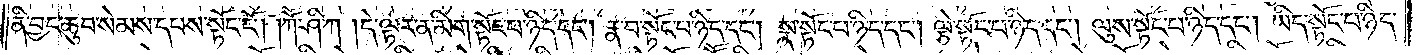ནི་བྱང་ཆུབ་སེམས་དཔས་སྟོང་ངོ༌། །ཀཽ་ཤི་ཀ །དེ་ལྟར་ན་མིག་སྟོང་པ་ཉིད་དང༌། རྣ་བ་སྟོང་པ་ཉིད་དང༌། སྣ་སྟོང་པ་ཉིད་དང༌། ལྕེ་སྟོང་པ་ཉིད་དང༌། ལུས་སྟོང་པ་ཉིད་དང༌། ཡིད་སྟོང་པ་ཉིད་
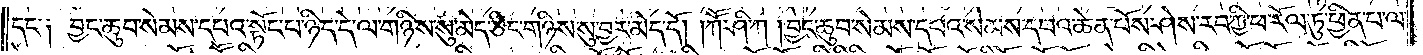དང༌༏ བྱང་ཆུབ་སེམས་དཔའ་སྟོང་པ་ཉིད་དེ་ལ་གཉིས་སུ་མེད་ཅིང་གཉིས་སུ་བྱར་མེད་དོ། །ཀཽ་ཤི་ཀ །བྱང་ཆུབ་སེམས་དཔའ་སེམས་དཔའ་ཆེན་པོས་ཤེས་རབ་ཀྱི་ཕ་རོལ་ཏུ་ཕྱིན་པ་ལ་
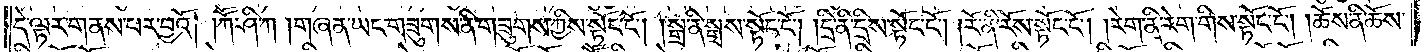དེ་ལྟར་གནས་པར་བྱའོ། །ཀཽ་ཤི་ཀ །གཞན་ཡང་གཟུགས་ནི་གཟུགས་ཀྱིས་སྟོང་ངོ༌། །སྒྲ་ནི་སྒྲས་སྟོང་ངོ༌། །དྲི་ནི་དྲིས་སྟོང་ངོ༌། །རོ་ནི་རོས་སྟོང་ངོ༌། །རེག་ནི་རེག་གིས་སྟོང་ངོ༌། །ཆོས་ནི་ཆོས་
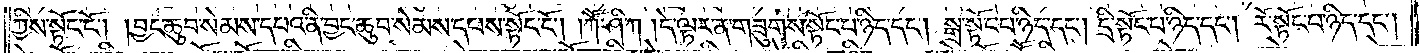ཀྱིས་སྟོང་ངོ༌། །བྱང་ཆུབ་སེམས་དཔའ་ནི་བྱང་ཆུབ་སེམས་དཔས་སྟོང་ངོ༌། །ཀཽ་ཤི་ཀ །དེ་ལྟར་ན་གཟུགས་སྟོང་པ་ཉིད་དང༌། སྒྲ་སྟོང་པ་ཉིད་དང༌། དྲི་སྟོང་པ་ཉིད་དང༌། རོ་སྟོང་པ་ཉིད་དང༌།
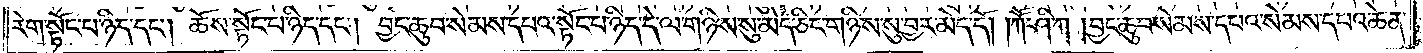རེག་སྟོང་པ་ཉིད་དང༌། ཆོས་སྟོང་པ་ཉིད་དང༌། བྱང་ཆུབ་སེམས་དཔའ་སྟོང་པ་ཉིད་དེ་ལ་གཉིས་སུ་མེད་ཅིང་གཉིས་སུ་བྱར་མེད་དོ། །ཀཽ་ཤི་ཀ །བྱང་ཆུབ་སེམས་དཔའ་སེམས་དཔའ་ཆེན་
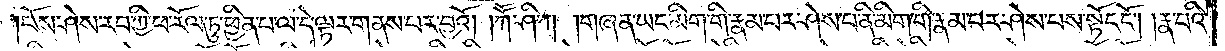པོས་ཤེས་རབ་ཀྱི་ཕ་རོལ་ཏུ་ཕྱིན་པ་ལ་དེ་ལྟར་གནས་པར་བྱའོ། ཀཽ་ཤི་ཀ །གཞན་ཡང་མིག་གི་རྣམ་པར་ཤེས་པ་ནི་མིག་གི་རྣམ་པར་ཤེས་པས་སྟོང་ངོ༌། །རྣ་བའི་
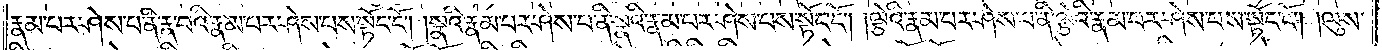རྣམ་པར་ཤེས་པ་ནི་རྣ་བའི་རྣམ་པར་ཤེས་པས་སྟོང་ངོ༌། །སྣའི་རྣམ་པར་ཤེས་པ་ནི་སྣའི་རྣམ་པར་ཤེས་པས་སྟོང་ངོ༌། །ལྕེའི་རྣམ་པར་ཤེས་པ་ནི་ལྕེའི་རྣམ་པར་ཤེས་པས་སྟོང་ངོ༌། །ལུས་
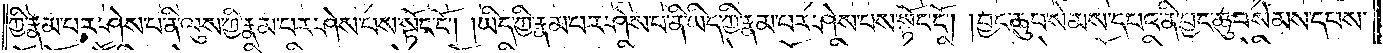ཀྱི་རྣམ་པར་ཤེས་པ་ནི་ལུས་ཀྱི་རྣམ་པར་ཤེས་པས་སྟོང་ངོ༌། །ཡིད་ཀྱི་རྣམ་པར་ཤེས་པ་ནི་ཡིད་ཀྱི་རྣམ་པར་ཤེས་པས་སྟོང་ངོ༌། ། བྱང་ཆུབ་སེམས་དཔའ་ནི་བྱང་ཆུབ་སེམས་དཔས་
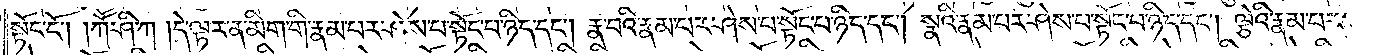སྟོང་ངོ༌། །ཀཽ་ཤི་ཀ །དེ་ལྟར་ན་མིག་གི་རྣམ་པར་ཤེས་པ་སྟོང་པ་ཉིད་དང༌། རྣ་བའི་རྣམ་པར་ཤེས་པ་སྟོང་པ་ཉིད་དང༌། སྣའི་རྣམ་པར་ཤེས་པ་སྟོང་པ་ཉིད་དང༌། ལྕེའི་རྣམ་པར་
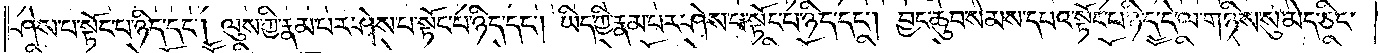ཤེས་པ་སྟོང་པ་ཉིད་དང༌། ལུས་ཀྱི་རྣམ་པར་ཤེས་པ་སྟོང་པ་ཉིད་དང༌། ཡིད་ཀྱི་རྣམ་པར་ཤེས་པ་སྟོང་པ་ཉིད་དང༌། བྱང་ཆུབ་སེམས་དཔའ་སྟོང་པ་ཉིད་དེ་ལ་གཉིས་སུ་མེད་ཅིང་
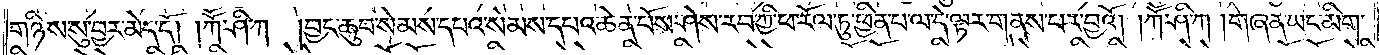གཉིས་སུ་བྱར་མེད་དོ། །ཀཽ་ཤི་ཀ །བྱང་ཆུབ་སེམས་དཔའ་སེམས་དཔའ་ཆེན་པོས་ཤེས་རབ་ཀྱི་ཕ་རོལ་ཏུ་ཕྱིན་པ་དེ་ལྟར་གནས་པར་བྱའོ། ཀཽ་ཤི་ཀ །གཞན་ཡང་མིག་
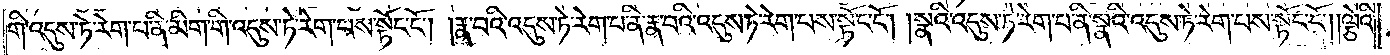གི་འདུས་ཏེ་རེག་པ་ནི་མིག་གི་འདུས་ཏེ་རེག་པས་སྟོང་ངོ༌། །རྣ་བའི་འདུས་ཏེ་རེག་པ་ནི་རྣ་བའི་འདུས་ཏེ་རེག་པས་སྟོང་ངོ༌། །སྣའི་འདུས་ཏེ་རེག་པ་ནི་སྣའི་འདུས་ཏེ་རེག་པས་སྟོང་ངོ༌། །ལྕེའི་
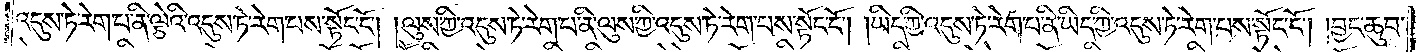འདུས་ཏེ་རེག་པ་ནི་ལྕེའི་འདུས་ཏེ་རེག་པས་སྟོང་ངོ༌། །ལུས་ཀྱི་འདུས་ཏེ་རེག་པ་ནི་ལུས་ཀྱི་འདུས་ཏེ་རེག་པས་སྟོང་ངོ༌། །ཡིད་ཀྱི་འདུས་ཏེ་རེག་པ་ནི་ཡིད་ཀྱི་འདུས་ཏེ་རེག་པས་སྟོང་ངོ༌། །བྱང་ཆུབ་
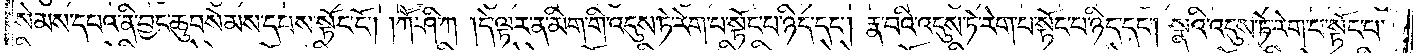སེམས་དཔའ་ནི་བྱང་ཆུབ་སེམས་དཔས་སྟོང་ངོ༌། །ཀཽ་ཤི་ཀ །དེ་ལྟར་ན་མིག་གི་འདུས་ཏེ་རེག་པ་སྟོང་པ་ཉིད་དང༌། རྣ་བའི་འདུས་ཏེ་རེག་པ་སྟོང་པ་ཉིད་དང༌། སྣའི་འདུས་ཏེ་རེག་པ་སྟོང་པ་
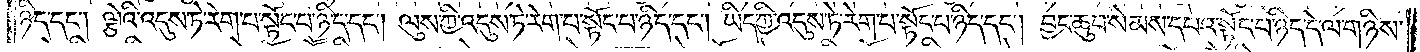ཉིད་དང༌། ལྕེའི་འདུས་ཏེ་རེག་པ་སྟོང་པ་ཉིད་དང༌། ལུས་ཀྱི་འདུས་ཏེ་རེག་པ་སྟོང་པ་ཉིད་དང༌། ཡིད་ཀྱི་འདུས་ཏེ་རེག་པ་སྟོང་པ་ཉིད་དང༌། བྱང་ཆུབ་སེམས་དཔའ་སྟོང་པ་ཉིད་དེ་ལ་གཉིས་
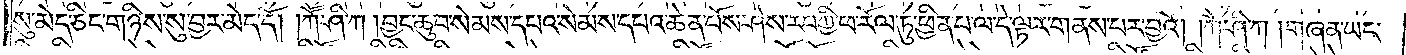སུ་མེད་ཅིང་གཉིས་སུ་བྱར་མེད་དོ། །ཀཽ་ཤི་ཀ །བྱང་ཆུབ་སེམས་དཔའ་སེམས་དཔའ་ཆེན་པོས་ཤེས་རབ་ཀྱི་ཕ་རོལ་ཏུ་ཕྱིན་པ་ལ་དེ་ལྟར་གནས་པར་བྱའོ། ཀཽ་ཤི་ཀ །གཞན་ཡང་
